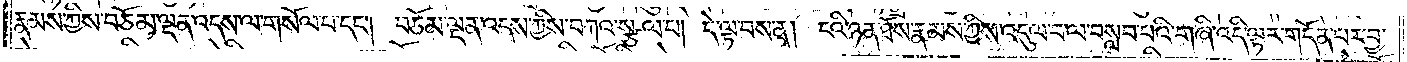རྣམས་ཀྱིས་བཅོམ་ལྡན་འདས་ལ་གསོལ་བ་དང༌། བཅོམ་ལྡན་འདས་ཀྱིས་བཀའ་སྩལ་པ། དེ་ལྟ་བས་ན། ངའི་ཉན་ཐོས་རྣམས་ཀྱིས་འདུལ་བ་ལ་བསླབ་པའི་གཞི་འདི་ལྟར་གདོན་པར་བྱ་
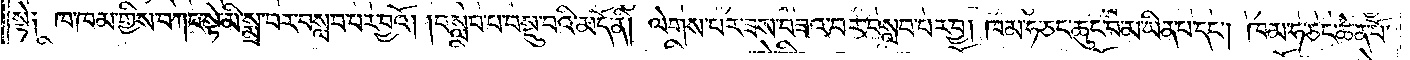སྟེ༑ ཁ་ཁམ་གྱིས་བཀང་སྟེ་མི་སྨྲ་བར་བསླབ་པར་བྱའོ། །བསླབ་པ་བསྡུ་བའི་མདོ་ནི། ལེགས་པར་ཟས་བཟའ་བར་བསླབ་པར་བྱ། །ཁམ་ཧ་ཅང་ཆུང་བར་མ་ཡིན་པ་དང༌། ཁམ་ཧ་ཅང་ཆེན་པོ་
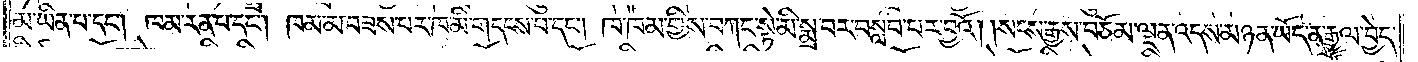མ་ཡིན་པ་དང༌། ཁམ་རན་པ་དང༌། ཁམ་མ་བཟས་པར་ཁ་མི་གདངས་པ་དང༌། ཁ་ཁམ་གྱིས་བཀང་སྟེ་མི་སྨྲ་བར་བསླབ་པར་བྱའོ། །སངས་རྒྱས་བཅོམ་ལྡན་འདས་མཉན་ཡོད་ན་རྒྱལ་བྱེད་
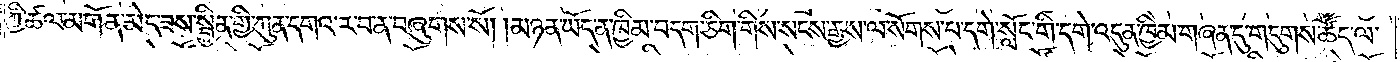ཀྱི་ཚལ་མགོན་མེད་ཟས་སྦྱིན་གྱི་ཀུན་དགའ་ར་བ་ན་བཞུགས་སོ། །མཉན་ཡོད་ན་ཁྱིམ་བདག་ཅིག་གིས་སངས་རྒྱས་ལ་སོགས་པ་དགེ་སློང་གི་དགེ་འདུན་ཁྱིམ་གཞན་དུ་གདུགས་ཚོད་ལ་
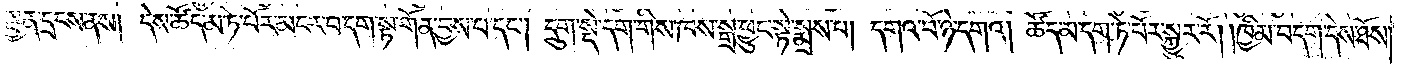སྤྱན་དྲངས་ནས། དེས་ཚོད་མ་ཏེ་པོར་མངར་བ་དག་སྟ་གོན་བྱས་པ་དང༌། དྲུག་སྡེ་དག་གིས་ཁས་སྒྲ་ཕྱུང་སྟེ་སྨྲས་པ། དགའ་བོ་ཉེ་དགའ། ཚོད་མ་དག་ཏེ་པོར་སྐྱུར་རོ། །ཁྱིམ་བདག་དེས་ཐོས་
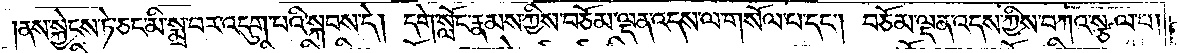།ནས་སྐྱེངས་ཏེ་ཅང་མི་སྨྲ་བར་འདུག་པའི་སྐབས་དེ། དགེ་སློང་རྣམས་ཀྱིས་བཅོམ་ལྡན་འདས་ལ་གསོལ་བ་དང༌། བཅོམ་ལྡན་འདས་ཀྱིས་བཀའ་སྩལ་པ།
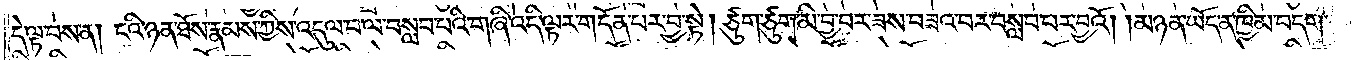དེ་ལྟ་བས་ན། ངའི་ཉན་ཐོས་རྣམས་ཀྱིས་འདུལ་བ་ལ་བསླབ་པའི་གཞི་འདི་ལྟར་གདོན་པར་བྱ་སྟེ། ཙུག་ཙུག་མི་བྱ་བར་ཟས་བཟའ་བར་བསླབ་པར་བྱའོ། །མཉན་ཡོད་ན་ཁྱིམ་བདག་
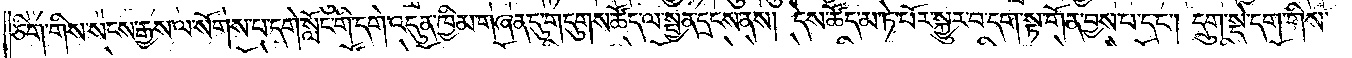ཅིག་གིས་སངས་རྒྱས་ལ་སོགས་པ་དགེ་སློང་གི་དགེ་འདུན་ཁྱིམ་གཞན་དུ་གདུགས་ཚོད་ལ་སྤྱན་དྲངས་ནས། དེས་ཚོད་མ་ཏེ་པོར་སྐྱུར་བ་དག་སྟ་གོན་བྱས་པ་དང༌། དྲུག་སྡེ་དག་གིས་
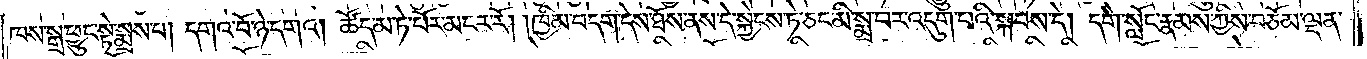ཁས་སྒྲ་ཕྱུང་སྟེ་སྨྲས་པ། དགའ་བོ་ཉེ་དགའ། ཚོད་མ་ཏེ་པོར་མངར་རོ། །ཁྱིམ་བདག་དེས་ཐོས་ནས་དེ་སྐྱེངས་ཏེ་ཅང་མི་སྨྲ་བར་འདུག་པའི་སྐབས་དེ། དགེ་སློང་རྣམས་ཀྱི་བཅོམ་ལྡན་
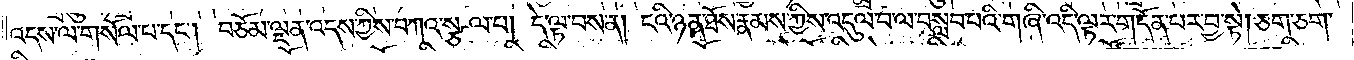འདས་ལ་གསོལ་བ་དང༌། བཅོམ་ལྡན་འདས་ཀྱིས་བཀའ་སྩལ་པ། དེ་ལྟ་བས་ན། ངའི་ཉན་ཐོས་རྣམས་ཀྱི་འདུལ་བ་ལ་བསླབ་པའི་གཞི་འདི་ལྟར་གདོན་པར་བྱ་སྟེ། ཅག་ཅག་
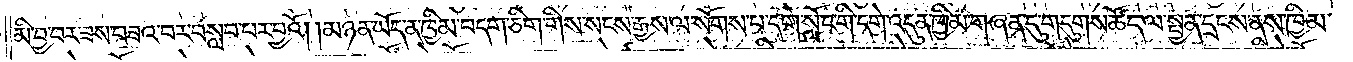མི་བྱ་བར་ཟས་བཟའ་བར་བསླབ་པར་བྱའོ། །མཉན་ཡོད་ན་ཁྱིམ་བདག་ཅིག་གིས་སངས་རྒྱས་ལ་སོགས་པ་དགེ་སློང་གི་དགེ་འདུན་ཁྱིམ་གཞན་དུ་གདུགས་ཚོད་ལ་སྤྱན་དྲངས་ནས་ཁྱིམ་
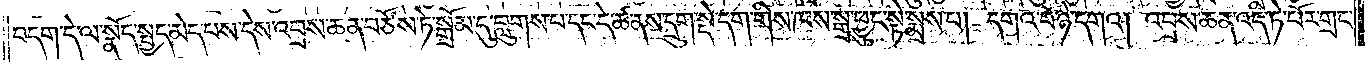བདག་དེ་ལ་སྣོད་སྤྱད་མེད་པས་དེས་འབྲས་ཆན་བཙོས་ཏེ་སྒྲོམ་དུ་བླུགས་པ་དང་དེ་ཚ་ནས་དྲུག་སྡེ་དག་གིས་ཁས་སྒྲ་ཕྱུང་སྟེ་སྨྲས་པ། དགའ་བོ་ཉེ་དགའ། འབྲས་ཆན་འདི་ཏེ་པོར་གྲང་
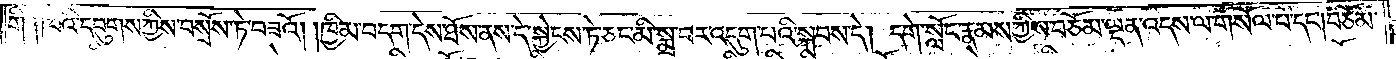གི ༑ཁའི་དབུགས་ཀྱིས་བསྲོས་ཏེ་བཟའོ། །ཁྱིམ་བདག་དེས་ཐོས་ནས་དེ་སྐྱེངས་ཏེ་ཅང་མི་སྨྲ་བར་འདུག་པའི་སྐབས་དེ། དགེ་སློང་རྣམས་ཀྱིས་བཅོམ་ལྡན་འདས་ལ་གསོལ་བ་དང༌།བཅོམ་
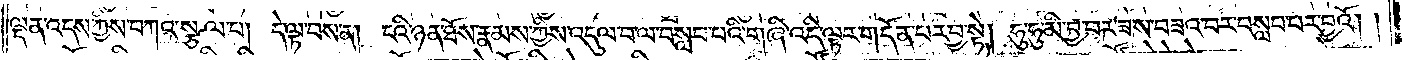ལྡན་འདས་ཀྱིས་བཀའ་སྩལ་པ། དེ་ལྟ་བས་ན། ངའི་ཉན་ཐོས་རྣམས་ཀྱིས་འདུལ་བ་ལ་བསླབ་པའི་གཞི་འདི་ལྟར་གདོན་པར་བྱ་སྟེ། ཧུ་ཧུ་མི་བྱ་བར་ཟས་བཟའ་བར་བསླབ་པར་བྱའོ། །
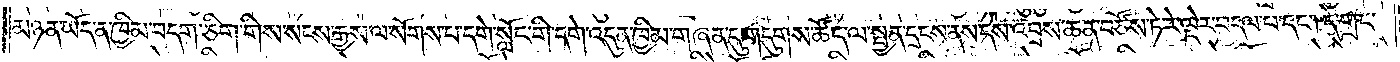མཉན་ཡོད་ན་ཁྱིམ་བདག་ཅིག་གིས་སངས་རྒྱས་ལ་སོགས་པ་དགེ་སློང་གི་དགེ་འདུན་ཁྱིམ་གཞན་དུ་གདུགས་ཚོད་ལ་སྤྱན་དྲངས་ནས་དེས་འབྲས་ཆན་བཙོས་ཏེ་རེ་ལྡེར་བདལ་བ་དང༌། དེ་གྲང་
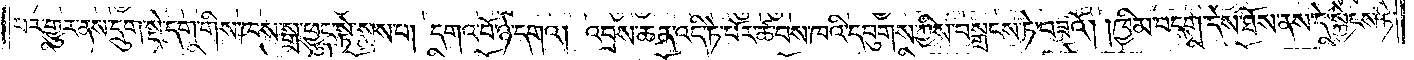བར་གྱུར་ནས་དྲུག་སྡེ་དག་གིས་ཁས་སྒྲ་ཕྱུང་སྟེ་སྨྲས་པ། དགའ་བོ་ཉེ་དགའ། འབྲས་ཆན་འདི་ཏེ་པོར་ཚ་བས་ཁའི་དབུགས་ཀྱིས་བསྒྲངས་ཏེ་བཟའོ། །ཁྱིམ་བདག་དེས་ཐོས་ནས་དེ་སྐྱེངས་ཏེ་
